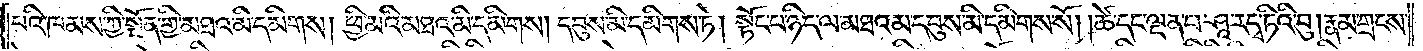པའི་ཁམས་ཀྱི་སྔོན་གྱི་མཐའ་མི་དམིགས། ཕྱི་མའི་མཐའ་མི་དམིགས། དབུས་མི་དམིགས་ཏེ། སྟོང་པ་ཉིད་ལ་མཐའམ་དབུས་མི་དམིགས་སོ། །ཚེ་དང་ལྡན་པ་ཤཱ་ར་དྭ་ཏིའི་བུ། རྣམ་གྲངས་
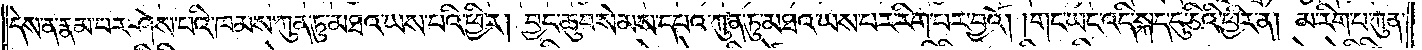དེས་ན་རྣམ་པར་ཤེས་པའི་ཁམས་ཀུན་ཏུ་མཐའ་ཡས་པའི་ཕྱིར། བྱང་ཆུབ་སེམས་དཔའ་ཀུན་ཏུ་མཐའ་ཡས་པར་རིག་པར་བྱའོ། །གང་ཡང་འདི་སྐད་དུ་ཅིའི་ཕྱིར་ན། མ་རིག་པ་ཀུན་
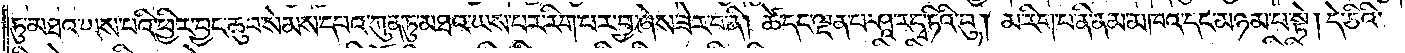ཏུ་མཐའ་ཡས་པའི་ཕྱིར་བྱང་ཆུབ་སེམས་དཔའ་ཀུན་ཏུ་མཐའ་ཡས་པར་རིག་པར་བྱ་ཞེས་ཟེར་བ་ནི། ཚེ་དང་ལྡན་པ་ཤཱ་ར་དྭ་ཏིའི་བུ། མ་རིག་པ་ནི་ནམ་མཁའ་དང་མཉམ་པ་སྟེ། དེ་ཅིའི་
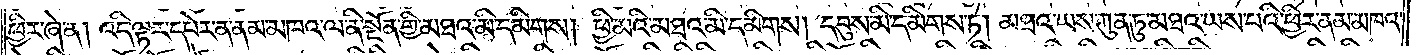ཕྱིར་ཞེ་ན། འདི་ལྟར་དཔེར་ན་ནམ་མཁའ་ལ་ནི་སྔོན་གྱི་མཐའ་མི་དམིགས། ཕྱི་མའི་མཐའ་མི་དམིགས། དབུས་མི་དམིགས་ཏེ། མཐའ་ཡས་ཀུན་ཏུ་མཐའ་ཡས་པའི་ཕྱིར་ནམ་མཁའ་
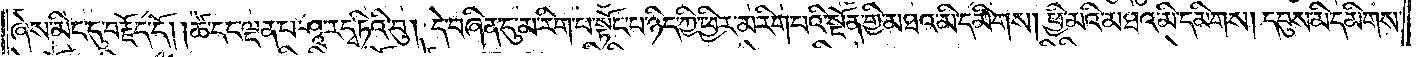ཞེས་མིང་དུ་བརྗོད་དོ། །ཚེ་དང་ལྡན་པ་ཤཱ་ར་དྭ་ཏིའི་བུ། དེ་བཞིན་དུ་མ་རིག་པ་སྟོང་པ་ཉིད་ཀྱི་ཕྱིར་མ་རིག་པའི་སྔོན་གྱི་མཐའ་མི་དམིགས། ཕྱི་མའི་མཐའ་མི་དམིགས། དབུས་མི་དམིགས་
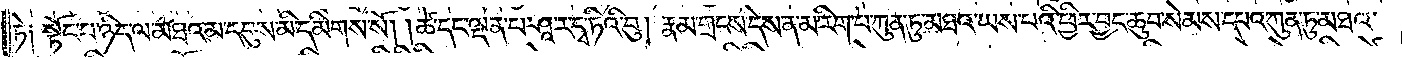ཏེ། སྟོང་པ་ཉིད་ལ་མཐའམ་དབུས་མི་དམིགས་སོ། །ཚེ་དང་ལྡན་པ་ཤཱ་ར་དྭ་ཏིའི་བུ། རྣམ་གྲངས་དེས་ན་མ་རིག་པ་ཀུན་ཏུ་མཐའ་ཡས་པའི་ཕྱིར་བྱང་ཆུབ་སེམས་དཔའ་ཀུན་ཏུ་མཐའ་
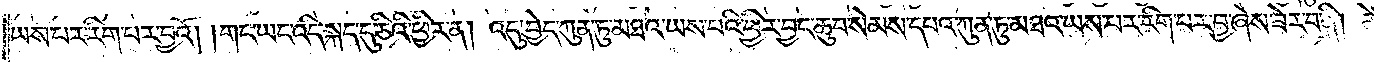ཡས་པར་རིག་པར་བྱའོ། །གང་ཡང་འདི་སྐད་དུ་ཅིའི་ཕྱིར་ན། འདུ་བྱེད་ཀུན་ཏུ་མཐའ་ཡས་པའི་ཕྱིར་བྱང་ཆུབ་སེམས་དཔའ་ཀུན་ཏུ་མཐའ་ཡས་པར་རིག་པར་བྱ་ཞེས་ཟེར་བ་ནི། ཚེ་
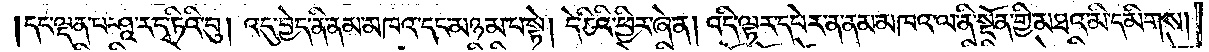དང་ལྡན་པ་ཤཱ་ར་དྭ་ཏིའི་བུ། འདུ་བྱེད་ནི་ནམ་མཁའ་དང་མཉམ་པ་སྟེ། དེ་ཅིའི་ཕྱིར་ཞེ་ན། འདི་ལྟར་དཔེར་ན་ནམ་མཁའ་ལ་ནི་སྔོན་གྱི་མཐའ་མི་དམིགས།
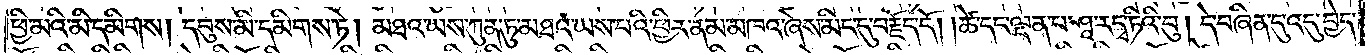ཕྱི་མའི་མཐའ་མི་དམིགས། དབུས་མི་དམིགས་ཏེ། མཐའ་ཡས་ཀུན་ཏུ་མཐའ་ཡས་པའི་ཕྱིར་ནམ་མཁའ་ཞེས་མིང་དུ་བརྗོད་དོ། །ཚེ་དང་ལྡན་པ་ཤཱ་ར་དྭ་ཏིའི་བུ། དེ་བཞིན་དུ་འདུ་བྱེད་
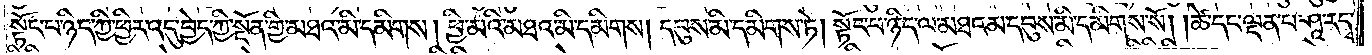སྟོང་པ་ཉིད་ཀྱི་ཕྱིར་འདུ་བྱེད་ཀྱི་སྔོན་གྱི་མཐའ་མི་དམིགས། ཕྱི་མའི་མཐའ་མི་དམིགས། དབུས་མི་དམིགས་ཏེ། སྟོང་པ་ཉིད་ལ་མཐའམ་དབུས་མི་དམིགས་སོ། །ཚེ་དང་ལྡན་པ་ཤཱ་ར་དྭ་
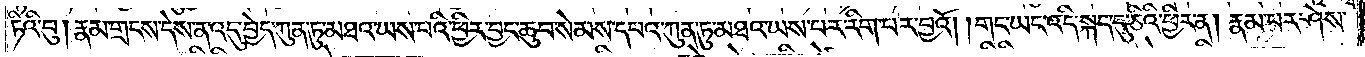ཏིའི་བུ། རྣམ་གྲངས་དེས་ན་འདུ་བྱེད་ཀུན་ཏུ་མཐའ་ཡས་པའི་ཕྱིར་བྱང་ཆུབ་སེམས་དཔའ་ཀུན་ཏུ་མཐའ་ཡས་པར་རིག་པར་བྱའོ། །གང་ཡང་འདི་སྐད་དུ་ཅིའི་ཕྱིར་ན། རྣམ་པར་ཤེས་
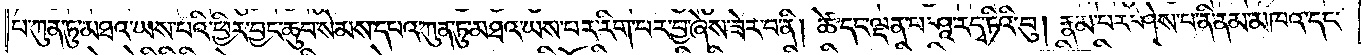པ་ཀུན་ཏུ་མཐའ་ཡས་པའི་ཕྱིར་བྱང་ཆུབ་སེམས་དཔའ་ཀུན་ཏུ་མཐའ་ཡས་པར་རིག་པར་བྱ་ཞེས་ཟེར་བ་ནི། ཚེ་དང་ལྡན་པ་ཤཱ་ར་དྭ་ཏིའི་བུ། རྣམ་པར་ཤེས་པ་ནི་ནམ་མཁའ་དང་
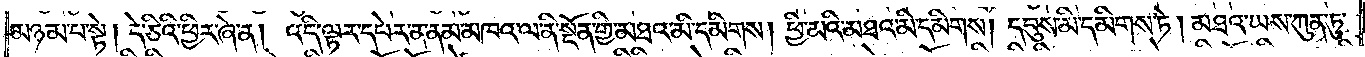མཉམ་པ་སྟེ། དེ་ཅིའི་ཕྱིར་ཞེ་ན། འདི་ལྟར་དཔེར་ན་ནམ་མཁའ་ལ་ནི་སྔོན་གྱི་མཐའ་མི་དམིགས། ཕྱི་མའི་མཐའ་མི་དམིགས། དབུས་མི་དམིགས་ཏེ། མཐའ་ཡས་ཀུན་ཏུ་
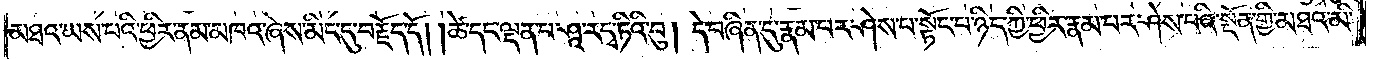མཐའ་ཡས་པའི་ཕྱིར་ནམ་མཁའ་ཞེས་མིང་དུ་བརྗོད་དོ། །ཚེ་དང་ལྡན་པ་ཤཱ་ར་དྭ་ཏིའི་བུ། དེ་བཞིན་དུ་རྣམ་པར་ཤེས་པ་སྟོང་པ་ཉིད་ཀྱི་ཕྱིར་རྣམ་པར་ཤེས་པའི་སྔོན་གྱི་མཐའ་མི་
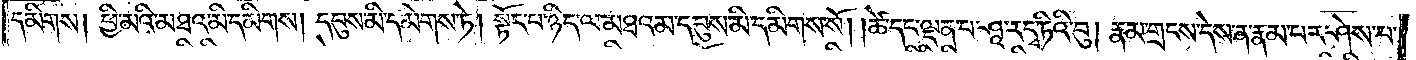དམིགས། ཕྱི་མའི་མཐའ་མི་དམིགས། དབུས་མི་དམིགས་ཏེ། སྟོང་པ་ཉིད་ལ་མཐའམ་དབུས་མི་དམིགས་སོ། །ཚེ་དང་ལྡན་པ་ཤཱ་ར་དྭ་ཏིའི་བུ། རྣམ་གྲངས་དེས་ན་རྣམ་པར་ཤེས་པ་
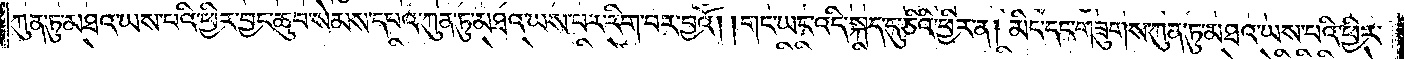ཀུན་ཏུ་མཐའ་ཡས་པའི་ཕྱིར་བྱང་ཆུབ་སེམས་དཔའ་ཀུན་ཏུ་མཐའ་ཡས་པར་རིག་པར་བྱའོ། །གང་ཡང་འདི་སྐད་དུ་ཅིའི་ཕྱིར་ན། མིང་དང་གཟུགས་ཀུན་ཏུ་མཐའ་ཡས་པའི་ཕྱིར་
